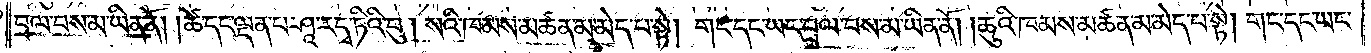བྲལ་བས་མ་ཡིན་ནོ། །ཚེ་དང་ལྡན་པ་ཤཱ་ར་དྭ་ཏིའི་བུ། སའི་ཁམས་མཚན་མ་མེད་པ་སྟེ། གང་དང་ཡང་བྲལ་བས་མ་ཡིན་ནོ། །ཆུའི་ཁམས་མཚན་མ་མེད་པ་སྟེ། གང་དང་ཡང་
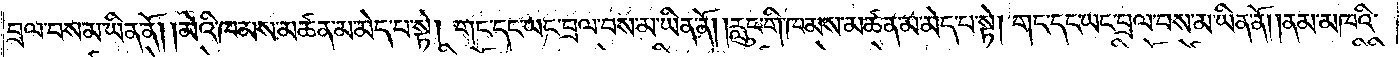བྲལ་བས་མ་ཡིན་ནོ། །མེའི་ཁམས་མཚན་མ་མེད་པ་སྟེ། གང་དང་ཡང་བྲལ་བས་མ་ཡིན་ནོ། །རླུང་གི་ཁམས་མཚན་མ་མེད་པ་སྟེ། གང་དང་ཡང་བྲལ་བས་མ་ཡིན་ནོ། །ནམ་མཁའི་
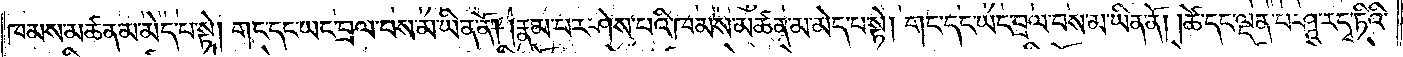ཁམས་མཚན་མ་མེད་པ་སྟེ། གང་དང་ཡང་བྲལ་བས་མ་ཡིན་ནོ། །རྣམ་པར་ཤེས་པའི་ཁམས་མཚན་མ་མེད་པ་སྟེ། གང་དང་ཡང་བྲལ་བས་མ་ཡིན་ནོ། །ཚེ་དང་ལྡན་པ་ཤཱ་ར་དྭ་ཏིའི་
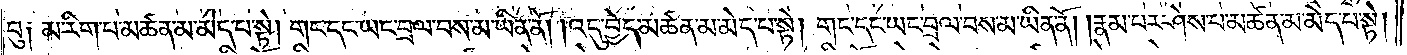བུ༑ མ་རིག་པ་མཚན་མ་མེད་པ་སྟེ། གང་དང་ཡང་བྲལ་བས་མ་ཡིན་ནོ། །འདུ་བྱེད་མཚན་མ་མེད་པ་སྟེ། གང་དང་ཡང་བྲལ་བས་མ་ཡིན་ནོ། །རྣམ་པར་ཤེས་པ་མཚན་མ་མེད་པ་སྟེ།
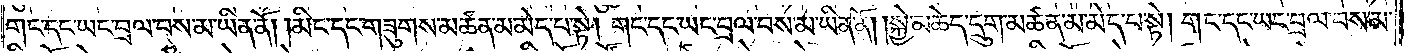གང་དང་ཡང་བྲལ་བས་མ་ཡིན་ནོ། །མིང་དང་གཟུགས་མཚན་མ་མེད་པ་སྟེ། གང་དང་ཡང་བྲལ་བས་མ་ཡིན་ནོ། །སྐྱེ་མཆེད་དྲུག་མཚན་མ་མེད་པ་སྟེ། གང་དང་ཡང་བྲལ་བས་མ་
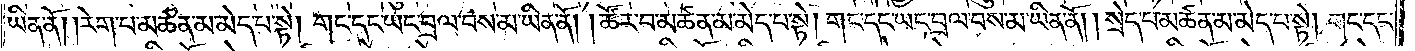ཡིན་ནོ། །རེག་པ་མཚན་མ་མེད་པ་སྟེ། གང་དང་ཡང་བྲལ་བས་མ་ཡིན་ནོ། །ཚོར་བ་མཚན་མ་མེད་པ་སྟེ། གང་དང་ཡང་བྲལ་བས་མ་ཡིན་ནོ། །སྲེད་པ་མཚན་མ་མེད་པ་སྟེ། གང་དང་
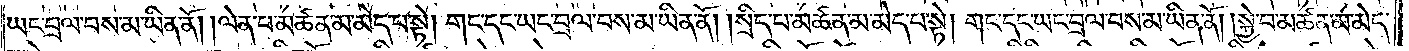ཡང་བྲལ་བས་མ་ཡིན་ནོ། །ལེན་པ་མཚན་མ་མེད་པ་སྟེ། གང་དང་ཡང་བྲལ་བས་མ་ཡིན་ནོ། །སྲིད་པ་མཚན་མ་མེད་པས་ཏེ། གང་དང་ཡང་བྲལ་བས་མ་ཡིན་ནོ། །སྐྱེ་བ་མཚན་མ་མེད་
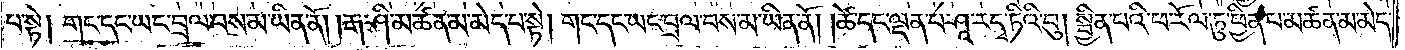པ་སྟེ། གང་དང་ཡང་བྲལ་བས་མ་ཡིན་ནོ། །རྒ་ཤི་མཚན་མ་མེད་པ་སྟེ། གང་དང་ཡང་བྲལ་བས་མ་ཡིན་ནོ། །ཚེ་དང་ལྡན་པ་ཤཱ་ར་དྭ་ཏིའི་བུ། སྦྱིན་པའི་ཕ་རོལ་ཏུ་ཕྱིན་པ་མཚན་མ་མེད་
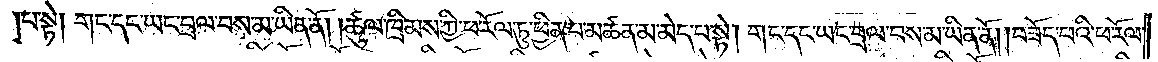པ་སྟེ། གང་དང་ཡང་བྲལ་བས་མ་ཡིན་ནོ། །ཚུལ་ཁྲིམས་ཀྱི་ཕ་རོལ་ཏུ་ཕྱིན་པ་མཚན་མ་མེད་པ་སྟེ། གང་དང་ཡང་བྲལ་བས་མ་ཡིན་ནོ། །བཟོད་པའི་ཕ་རོལ་
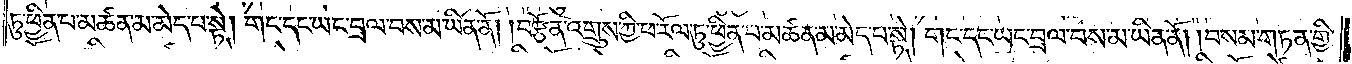ཏུ་ཕྱིན་པ་མཚན་མ་མེད་པ་སྟེ། གང་དང་ཡང་བྲལ་བས་མ་ཡིན་ནོ། །བརྩོན་འགྲུས་ཀྱི་ཕ་རོལ་ཏུ་ཕྱིན་པ་མཚན་མ་མེད་པ་སྟེ། གང་དང་ཡང་བྲལ་བས་མ་ཡིན་ནོ། །བསམ་གཏན་གྱི་
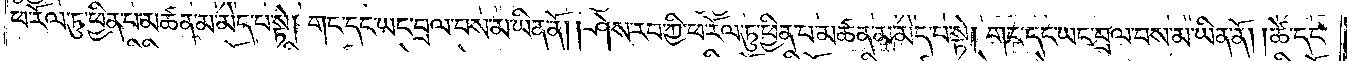ཕ་རོལ་ཏུ་ཕྱིན་པ་མཚན་མ་མེད་པ་སྟེ། གང་དང་ཡང་བྲལ་བས་མ་ཡིན་ནོ། །ཤེས་རབ་ཀྱི་ཕ་རོལ་ཏུ་ཕྱིན་པ་མཚན་མ་མེད་པ་སྟེ། གང་དང་ཡང་བྲལ་བས་མ་ཡིན་ནོ། །ཚེ་དང་
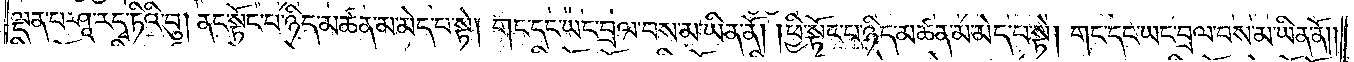ལྡན་པ་ཤཱ་ར་དྭ་ཏིའི་བུ། ནང་སྟོང་པ་ཉིད་མཚན་མ་མེད་པ་སྟེ། གང་དང་ཡང་བྲལ་བས་མ་ཡིན་ནོ། །ཕྱི་སྟོང་པ་ཉིད་མཚན་མ་མེད་པ་སྟེ། གང་དང་ཡང་བྲལ་བས་མ་ཡིན་ནོ། །
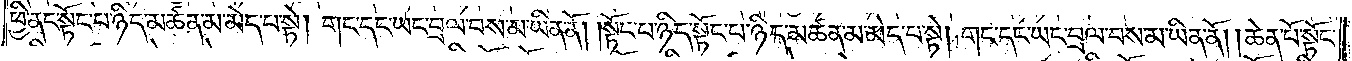ཕྱི་ནང་སྟོང་པ་ཉིད་མཚན་མ་མེད་པ་སྟེ། གང་དང་ཡང་བྲལ་བས་མ་ཡིན་ནོ། །སྟོང་པ་ཉིད་སྟོང་པ་ཉིད་མཚན་མ་མེད་པ་སྟེ། གང་དང་ཡང་བྲལ་བས་མ་ཡིན་ནོ། །ཆེན་པོ་སྟོང་
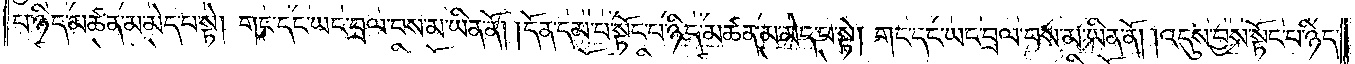པ་ཉིད་མཚན་མ་མེད་པ་སྟེ། གང་དང་ཡང་བྲལ་བས་མ་ཡིན་ནོ། །དོན་དམ་པ་སྟོང་པ་ཉིད་མཚན་མ་མེད་པ་སྟེ། གང་དང་ཡང་བྲལ་བས་མ་ཡིན་ནོ། །འདུས་བྱས་སྟོང་པ་ཉིད་
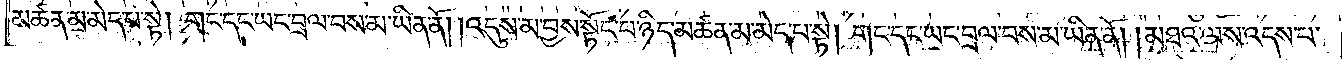མཚན་མ་མེད་པ་སྟེ། གང་དང་ཡང་བྲལ་བས་མ་ཡིན་ནོ། །འདུས་མ་བྱས་སྟོང་པ་ཉིད་མཚན་མ་མེད་པ་སྟེ། གང་དང་ཡང་བྲལ་བས་མ་ཡིན་ནོ། །མཐའ་ལས་འདས་པ་
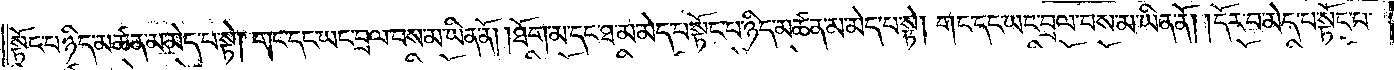སྟོང་པ་ཉིད་མཚན་མ་མེད་པ་སྟེ། གང་དང་ཡང་བྲལ་བས་མ་ཡིན་ནོ། །ཐོག་མ་དང་ཐ་མ་མེད་པ་སྟོང་པ་ཉིད་མཚན་མ་མེད་པ་སྟེ། གང་དང་ཡང་བྲལ་བས་མ་ཡིན་ནོ། །དོར་བ་མེད་པ་སྟོང་པ་
